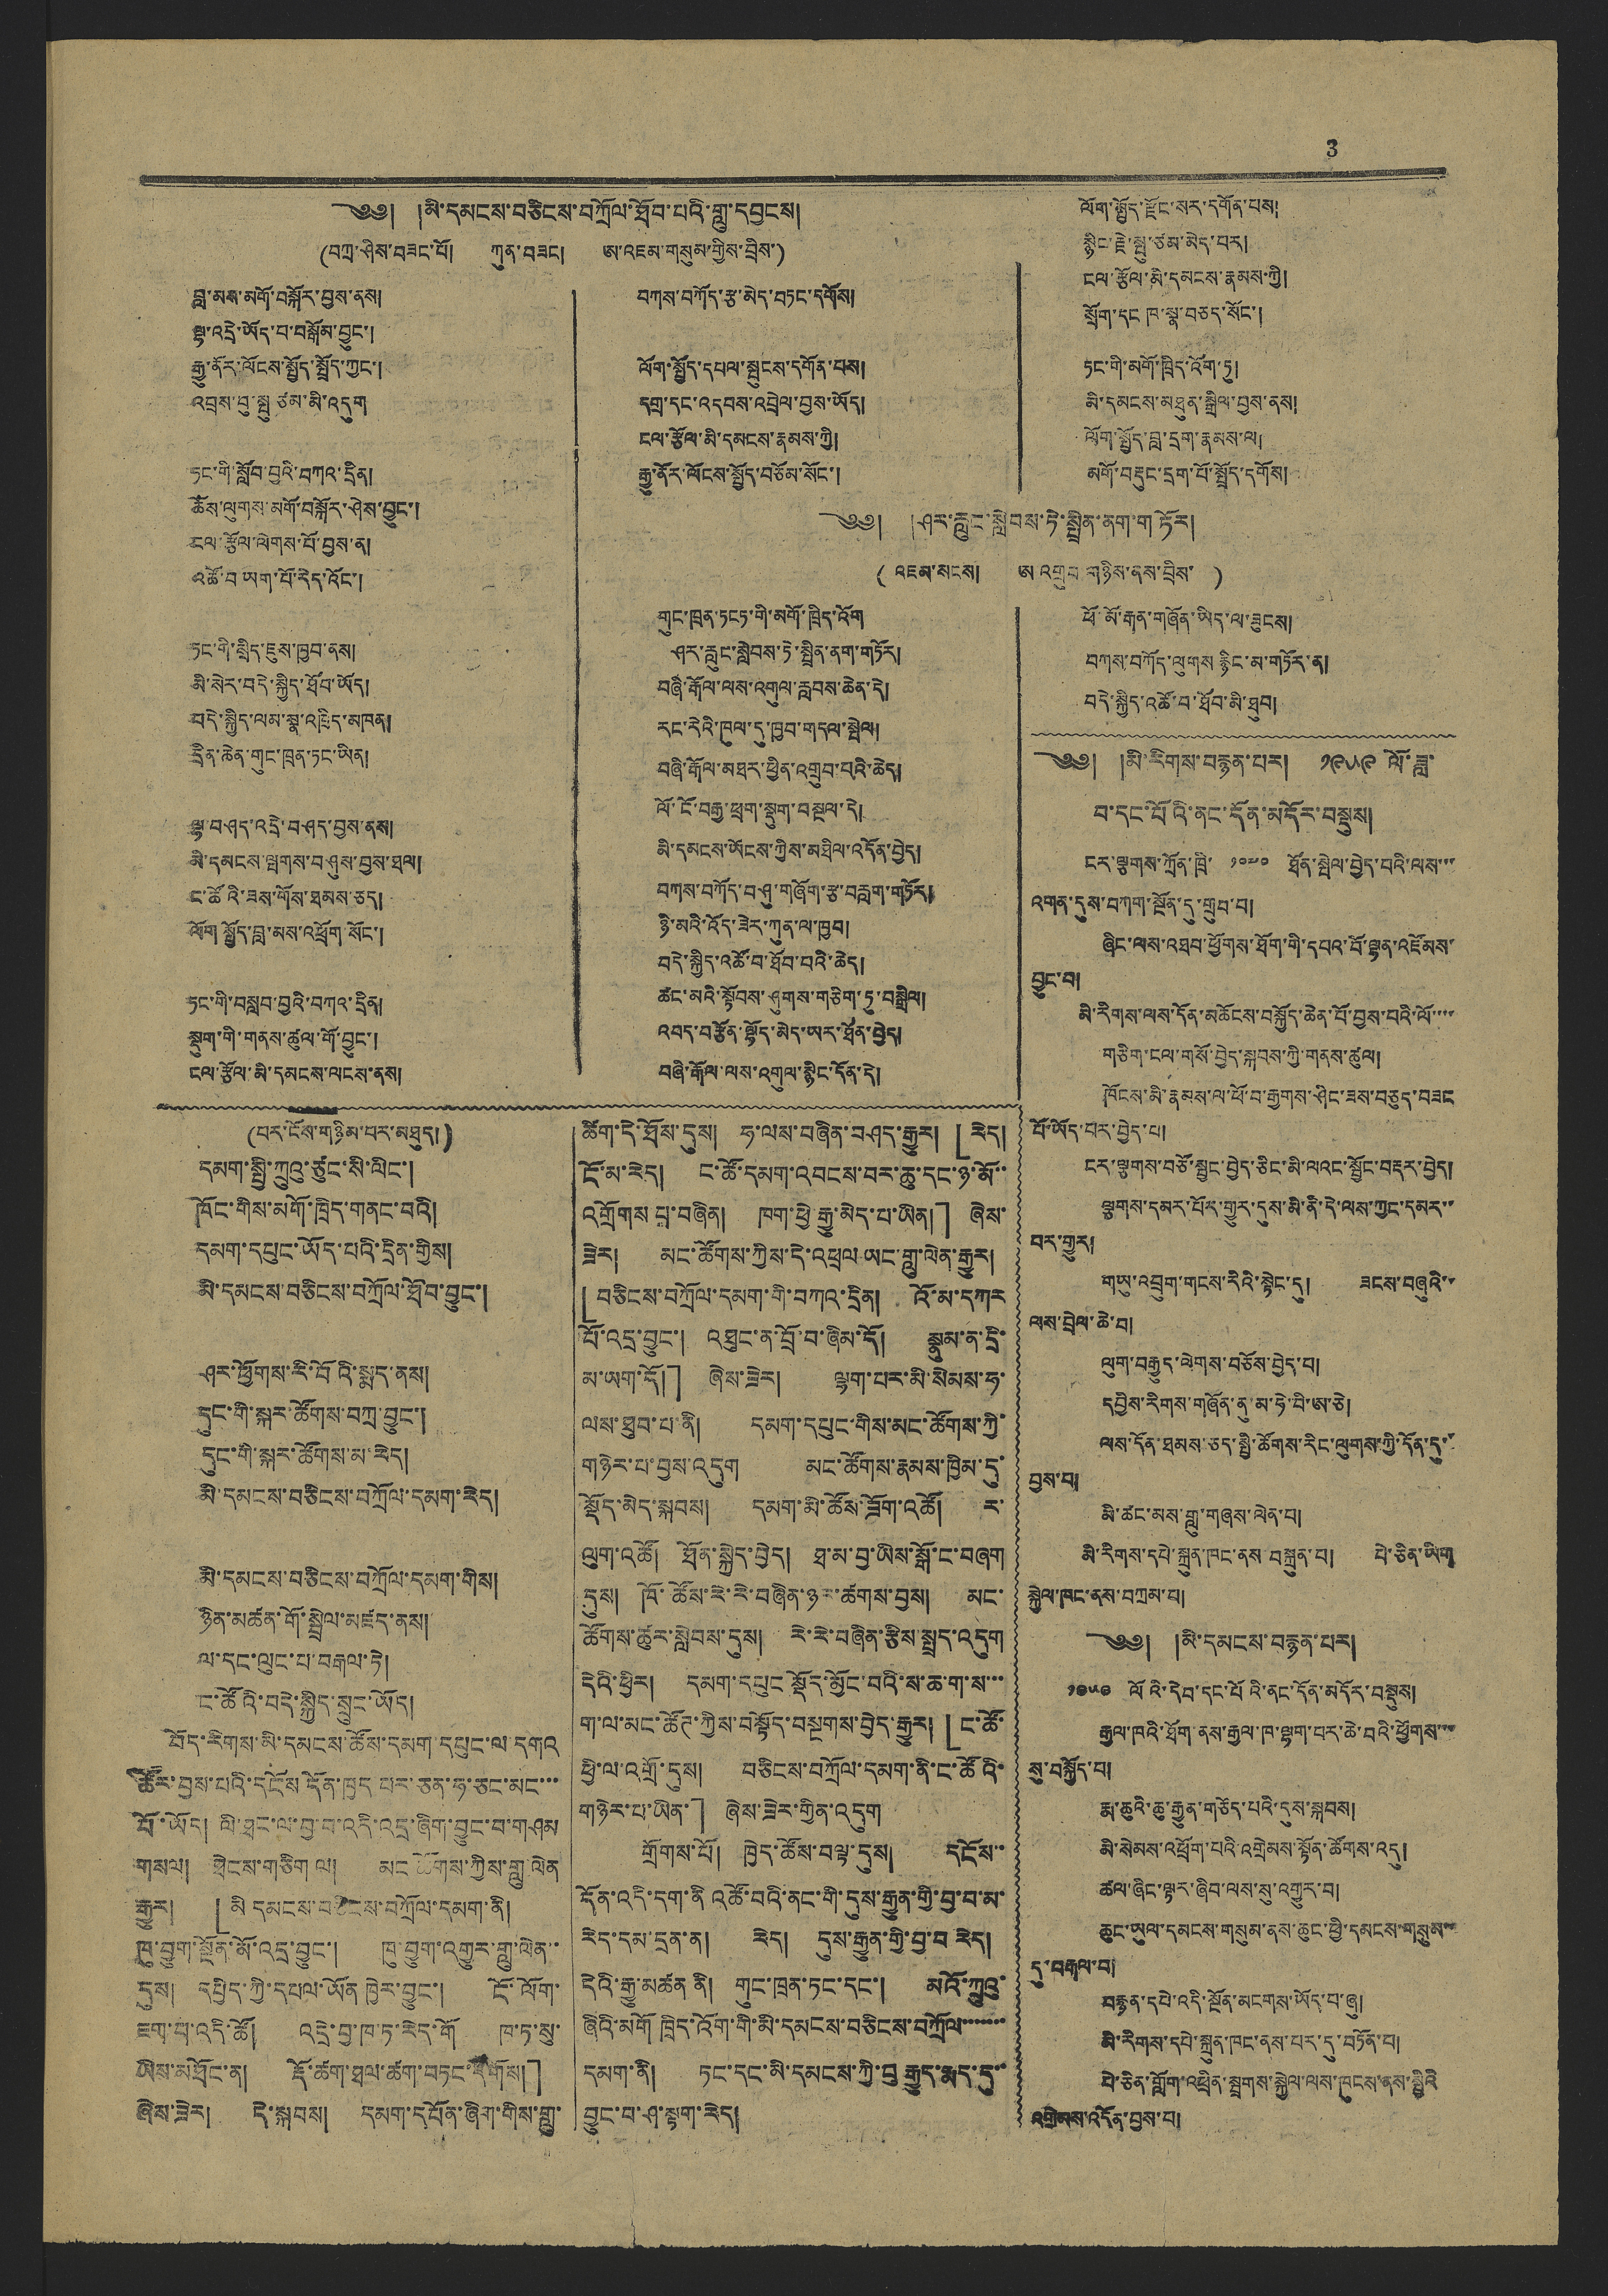3
༄༅། །མི་དམངས་བཅིངས་བཀྲོལ་ཐོབ་པའི་གླུ་དབྱངས།
(བཀྲ་ཤིས་བཟང་པོ། ཀུན་བཟང། ཨ་འཇམ་གསུམ་གྱིས་བྲིས་)
བླ་མས་མགོ་བསྐོར་བྱས་ནས།
ལྷ་འདྲེ་ཡོད་བ་བསྒོམ་བྱུང་།
རྒྱུ་ནོར་ལོངས་སྤྱོད་སྤྲོད་ཀྱང་།
འབྲས་བུ་སྤུ ཙམ་མི་འདུག
ཏང་གི་སློབ་བྱའི་བཀའ་དྲིན།
ཆོས་ལུགས་མགོ་བསྐོར་ཤེས་བྱུང་།
ངལ་རྩོལ་ལེགས་པོ་བྱས་ན།
འཚོ་བ ཡག་པོ་རེད་འོང་།
ཏང་གི་སྲིད་ཇུས་ཁྱབ་ནས།
མི་སེར་བདེ་སྐྱིད་ཐོབ་ཡོད།
བདེ་སྐྱིད་ལམ་སྣ་འཁྲིད་མཁན།
དྲིན་ཆེན་གུང་ཁྲན་ཏང་ཡིན།
ལྷ་བཤད་འདྲེ་བཤད་བྱས་ནས།
མི་དམངས་ལྤགས་བཤུས་བྱས་ཐལ།
ང་ཚོའི་ཟས་གོས་ཐམས་ཅད།
ལོག སྤྱོད་བླ་མས་འཕྲོག་སོང་།
ཏང་གི་བསླབ་བྱའི་བཀའ་དྲིན།
སྡུག་གི་གནས་ཚུལ་གོ་བྱུང་།
ངལ་རྩོལ་མི་དམངས་ལངས་ནས།
བཀས་བཀོད་རྩ་མེད་བཏང་དགོས།
ལོག་སྤྱོད་དཔལ་སྤུངས་དགོན་པས།
དགྲ་དང་འདབས་འབྲེལ་བྱས་ཡོད།
ངལ་རྩོལ་མི་དམངས་རྣམས་ཀྱི།
རྒྱུ་ནོར་ལོང་སྤྱོད་བཅོམ་སོང་།
ལོག་སྤྱོད་རྫོང་སར་དགོན་པས།
སྙིང་རྗེ་སྤུ་ཙམ་མེད་པར།
ངལ་རྩོལ་མི་དམངས་རྣམས་ཀྱི།
སྲོག་དང ཁ་སྣ་བཅད་སོང་།
ཏང་གི་མགོ་ཁྲིད་འོག་ཏུ།
མི་དམངས་མཐུན་སྒྲིལ་བྱས་ནས།
ལོག་སྤྱོད་བླ་དྲག་རྣམས་ལ།
མགོ་བརྡུང་དྲག་པོ་སྤྲོད་དགོས།
༄༅། །ཤར་རླུང་སླེབས་ཏེ་སྤྲིན་ནག་གཏོར།
(འཇམ་སངས། ཨ འགྲུབ་གཉིས་ནས་བྲིས་ )
གུང་ཁྲན་ཏངཏ་གི་མགོ་ཁྲིད་འོག
ཤར་རླུང་སླེབས་ཏེ་སྤྲིན་ནག་གཏོར།
བཞི་རྒོལ་ལས་འགུལ་རླབས་ཆེན་དེ།
རང་རེའི་ཁུལ་དུ་ཁྱབ་གདལ་སྤེལ།
བཞི་རྒོལ་མཐར་ཕྱིན་འགྲུབ་བའི་ཆེད།
ལོ་ངོ་བརྒྱ་ཕྲག་སྡུག་བསྔལ་དེ།
མི་དམངས་ཡོངས་ཀྱིས་མཐིལ་འདོན་བྱེད།
བཀས་བཀོད་བཤུ་གཞོག་རྩ་བརླག་གཏོར།
ཉི་མའི་འོད་ཟེར་ཀུན་ལ་ཁྱབ།
བདེ་སྐྱིད་འཚོ་བ་ཐོབ་པའི་ཆེད།
ཚང་མའི་སྟོབས་ཤུགས་གཅིག་ཏུ་བསྒྲིལ།
འབད་བརྩོན་ལྷོད་མེད་ཡར་ཐོན་བྱེད།
བཞི་རྒོལ་ལས་འགུལ་སྙིང་དོན་དེ།
ཕོ་མོ་རྒན་གཞོན་ཡིད་ལ་ཟུངས།
བཀས་བཀོད་ལུགས རྙིང་མ་གཏོར་ན།
བདེ་སྐྱིད་འཚོ་བ་ཐོབ་མི་ཐུབ།
(པར་ངོས་གཉིམ་པར་མཐུད།)
དམག་སྤྱི་ཀྲུའུ་ཙུང་སི་ལིང་།
ཁོང་གིས་མགོ་ཁྲིད་གནང་བའི།
དམག་དཔུང་ཡོད་པའི་དྲིན་གྱིས།
མི་དམངས་བཅིངས་བཀྲོལ་ཐོབ་བྱུང་།
ཤར་ཕྱོགས་རི་བོའི་སྨད་ནས།
དུང་གི་སྐར་ཚོགས་བཀྲ་བྱུང་།
དུང་གི་སྐར་ཚོགས་མ་རེད།
མི་དམངས་བཅིངས་བཀྲོལ་དམག་རེད།
མི་དམངས་བཅིངས་བཀྲོལ་དམག་གིས།
ཉིན་མཚན་གོ་སྦྲེལ་མཛད་ནས།
ལ་དང་ལུང་པ་བརྒལ་ཏེ།
ང་ཚོའི་བདེ་སྐྱིད་སྲུང་ཡོད།
བོད་རིགས་མི་དམངས་ཚོས་དམག་དཔུང་ལ་དགའ
ཚོར་བྱས་པའི་དངོས དོན་ཁྱད པར་ཅན་ཧ་ཅང་མང་་་
པོ་ཡོད། ལི་ཐང་ལ་བྱ་བ་འདི་འདྲ་ཞིག་བྱུང་བ་གཤམ
གསལ། ཐེངས་གཅིག ལ། མང ཚོགས་ཀྱིས་གླུ ལེན
རྒྱུར། 「མི་དམངས་བཅིངས་བཀྲོལ་དམག་ནི།
ཁུ་བྱུག་སྔོན་མོ་འདྲ་བྱུང་། ཁུ་བྱུག་འགྱུར་གླུ་ལེན་་
དུས། དཔྱིད་ཀྱི་དཔལ་ཡོན ཁྱེར་བྱུང་། ངོ་ལོག་
ཇག་པ་འདི་ཚོ། འདྲེ་བྱ་ཁ་ཏ་རེད་གོ ཁ་ཏ་སུ་
ཡིས་མཐོང་ན། རྡོ་ཚག་ཐལ་ཚག་བཏང་དགོས།」
ཞེས་ཟེར། དེ་སྐབས། དམག་དཔོན་ཞིག་གིས་གླུ་
ཚིག་དེ་ཐོས་དུས། ཧ་ལས་བཞིན་བཤད་རྒྱུར། 「རེད།
ངོ་མ་རེད། ང་ཚོ་དམག་འབངས་བར་ཆུ་དང་ཉ་མོ་་
འགྲོགས་པ་བཞིན། ཁག་ཕྱེ རྒྱུ་མེད་པ་ཡིན།」 ཞེས་
ཟེར། མང་ཚོགས་ཀྱིས་དེ་འཕྲལ ཡང་གླུ་ལེན་རྒྱུར།
「བཅིངས་བཀྲོལ་དམག་གི་བཀའ་དྲིན། འོ་མ་དཀར
པོ་འདྲ་བྱུང་། འཐུང་ན་བྲོ་བ་ཞིམ་དོ། སྣུམ་ན་དྲི་
མ་ཡག་དོ།」 ཞེས་ཟེར། ལྷག་པར་མི་སེམས་ཧ་
ལས་ཐུབ་པ་ནི། དམག་དཔུང་གིས་མང་ཚོགས་ཀྱི་
གཉེར་པ་བྱས་འདུག མང་ཚོགས་རྣམས་ཁྱིམ་དུ་
སྡོད་མེད་སྐབས། དམག་མི་ཚོས་ཟོག་འཚོ། ར་
ལུག་འཚོ། ཐོན་སྐྱེད་བྱེད། ཐ་མ་བྱ་ཡིས་སྒོ་ང་བཞག
དུས། ཁོ་ཚོས་རེ་རེ་བཞིན་ཉར་ཚགས་བྱས། མང་
ཚོགས་ཚུར་སླེབས་དུས། རེ་རེ་བཞིན་རྩིས་སྤྲད་འདུག
དེའི་ཕྱིར། དམག་དཔུང སྡོད་མྱོང་བའི་ས་ཆ་ག་ས་་་
ག་ལ་མང་ཚོཊ་ཀྱིས་བསྟོད་བསྔགས་བྱེད་རྒྱུར། 「ང་ཚོ་
ཕྱི་ལ་འགྲོ་དུས། བཅིངས་བཀྲོལ་དམག་ནི་ང་ཚོའི་
གཉེར་པ་ཡིན།」 ཞེས་ཟེར་གྱིན་འདུག
གྲོགས་པོ། ཁྱེད་ཚོས་བལྟ་དུས། དངོས་་
དོན་འདི་དག་ནི འཚོ་བའི་ནང་གི་དུས་རྒྱུན་གྱི་བྱ་བ་མ་
རེད་དམ་དྲན་ན། རེད། དུས་རྒྱུན་གྱི་བྱ་བ རེད།
དེའི་རྒྱུ་མཚན ནི། གུང་ཁྲན་ཏང་དང་། མའོ་ཀྲུའུ་
ཞིའི་མགོ ཁྲིད་འོག་གི་མི་དམངས་བཅིངས་བཀྲོལ་་་་་་་
དམག་ནི། ཏང་དང་མི་དམངས་ཀྱི་བུ རྒྱུད་རྨད་དུ་་
བྱུང་བ་ཤ་སྟག་རེད།
༄༅། །མི་རིགས་བརྙན་པར། ༡༩༥༩ ལོ་ཟླ་
བ་དང་པོའི་ནང་དོན་མདོར་བསྡུས།
ངར་ལྕགས་ཀྲོན་ཁྲི་ ༡༠༧༠ ཐོན་སྤེལ་བྱེད་པའི་ལས་་་
འགན་དུས་བཀག་སྔོན་དུ་གྲུབ་བ།
ཞིང་ལས་འཐབ་ཕྱོགས་ཐོག་གི་དཔའ་པོ་ལྷན་འཛོམས་
བྱུང་བ།
མི་རིགས་ལས་དོན་མཆོངས་བསྐྱོད་ཆེན་པོ་བྱས་པའི་ལོ་་་་
གཅིག་ངལ་གསོ་བྱེད་སྐབས་ཀྱི་གནས་ཚུལ།
ཁོངས་མི་རྣམས་ལ་ཕོ་བ་རྒྱགས་ཤིང་ཟས་བཅུད་བཟང
པོ་ཡོད་པར་བྱེད་པ།
ངར་ལྕགས་བཙོ་སྦྱང་བྱེད་ཅིང་མི་ལའང་སྦྱོང་བརྡར་བྱེད།
ལྕགས་དམར་པོར་གྱུར་དུས་མི་ནི་དེ་ལས་ཀྱང་དམར་་
བར་གྱུར།
གཡུ་འབྲུག་གངས་རིའི་སྟེང་དུ། ཟངས་བཞུའི་་
ལས་བྲེལ་ཆེ་བ།
ལུག་བརྒྱུད་ལེགས་བཅོས་བྱེད་པ།
དབྱིས་རིགས་གཞོན་ནུ་མ་ཧེ་བི་ཨ་ཅེ།
ལས་དོན་ཐམས་ཅད་སྤྱི་ཚོགས་རིང་ལུགས་ཀྱི་དོན་དུ་
བྱས་པ།
མི་ཚང་མས་གླུ་གཞས་ལེན་པ།
མི་རིགས་དཔེ་སྐྲུན་ཁང་ནས བསྐྲུན་པ། པེ་ཅིན་ཡིག
སྐྱེལ་ཁང་ནས་བཀྲམ་པ།
༄༅། །མི་དམངས་བརྙན་པར།
༡༩༥༩ ལོའི་དེབ་དང་པོའི་ནང་དོན་མདོར་བསྡུས།
རྒྱལ་ཁའི་ཐོག་ནས་རྒྱལ་ཁ་ལྷག་པར་ཆེ་བའི་ཕྱོགས་་་
སུ་བསྐྱོད་པ།
རྨ་ཆུའི་ཆུ་རྒྱུན་གཅོད་པའི་དུས་སྐབས།
མི་སེམས་འཕྲོག་པའི་འགྲེམས་སྟོན་ཚོགས་འདུ།
ཚལ་ཞིང་ལྟར་ཞིབ་ལས་སུ་འགྱུར་བ།
ཆུང་ཡུལ་དམངས་གསུམ་ནས་ཆུང་ཕྱི་དམངས་གསུམ་་
དུ་བརྒལ་བ།
བརྙན་དཔེ་འདི་སྔོན་མངགས་ཡོད་པ་ཞུ།
མི་རིགས་དཔེ་སྐྲུན་ཁང་ནས་པར་དུ་བཏོན་པ།
པེ་ཅིན་གློག་འཕྲིན་སྦྲགས་སྐྱེལ་ལས་ཁུངས་ནས་སྤྱིའི
འགྲེམས་འདོན་བྱས་པ།
